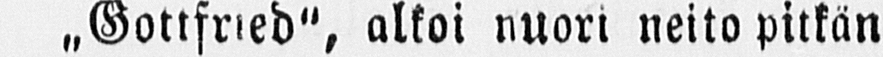˶Gottfried", alkoi nuori neito pitkän
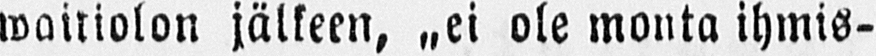waitiolon jälkeen, ˶ei ole monta ihmis-
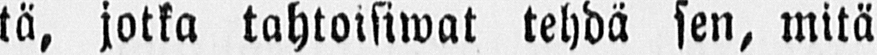tä, jotka tahtoisiwat tehdä sen, mitä
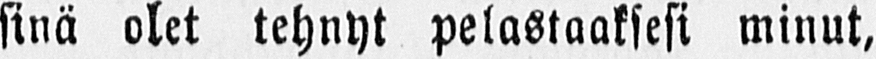sinä olet tehnyt pelastaaksesi minut,
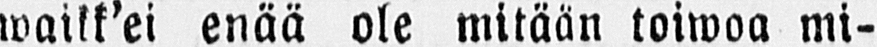waikk'ei enää ole mitään toiwoa mi-
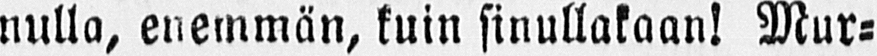nulla, enemmän, kuin sinullakaan! Mur-
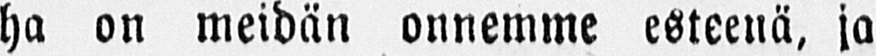ha on meidän onnemme esteenä, ja
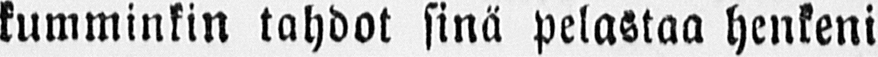kumminkin tahdot sinä pelastaa henkeni
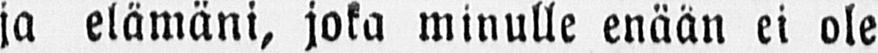ja elämäni, joka minulle enään ei ole
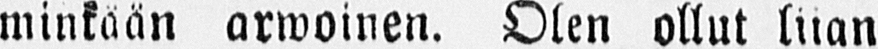minkään arwoinen. Olen ollut liian
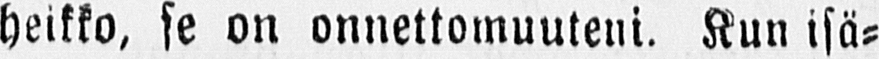heikko, se on onnettomuuteni. Kun isä-
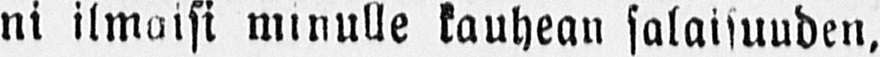ni ilmaisi minulle kauhean salaisuuden.
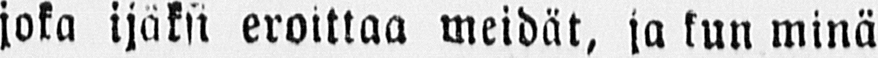joka ijäksi eroittaa meidät, ja kun minä
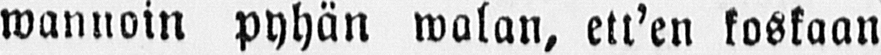wannoin pyhän walan, ett'en koskaan
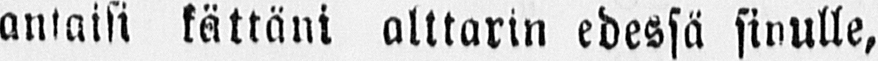antaisi kättäni alttarin edessä sinulle,
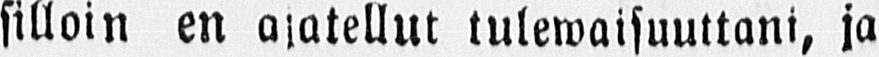silloin en ajatellut tulewaisuuttani, ja
